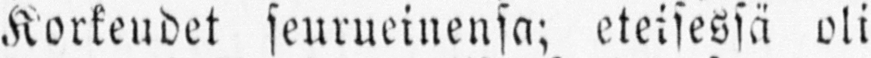Korkeudet seurueinensa; eteisessä oli
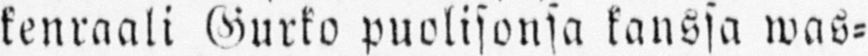kenraali Gurko puolisonsa kanssa was-
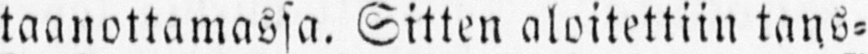taanottamassa. Sitten aloitettiin tans-
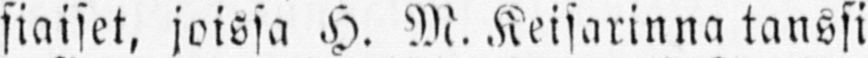siaiset, joissa H. M. Keisarinna tanssi
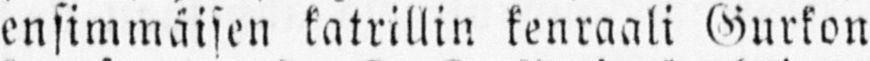ensimmäisen katrillin kenraali Gurkon
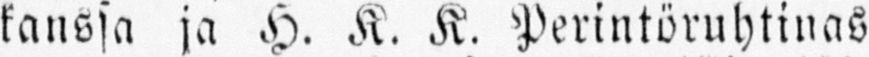kanssa ja H. K. K. Perintöruhtinas
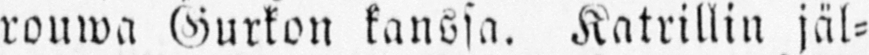rouwa Gurkon kanssa. Katrillin jäl-
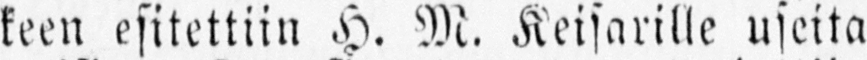keen esitettiin H. M. Keisarille useita
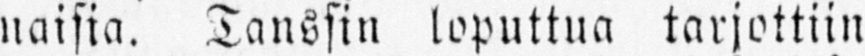naisia. Tanssin loputtua tarjottiin
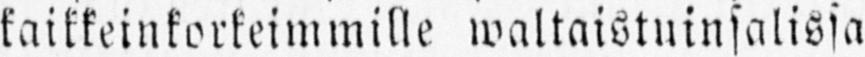kaikkeinkorkeimmille waltaistuinsalissa
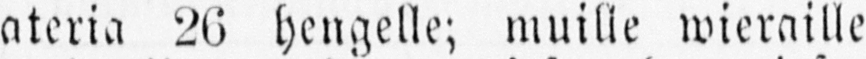ateria 26 hengelle; muille wieraille
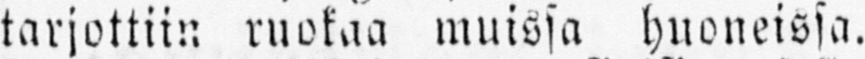tarjottiin ruokaa muissa huoneissa.
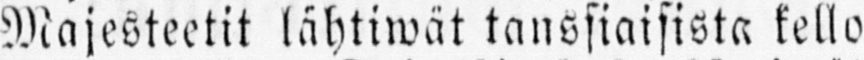Majesteetit lähtiwät tanssiaisista kello
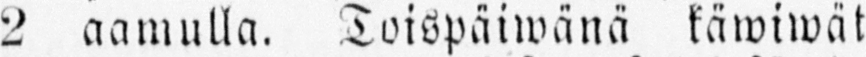2 aamulla. Toispäiwänä käwiwät
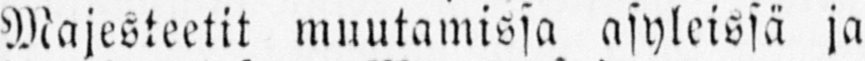Majesteetit muutamissa asyleissä ja
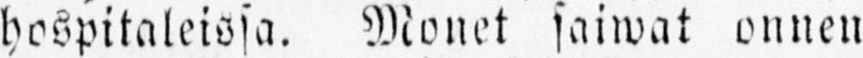hospitaleissa. Monet saiwat onnen
